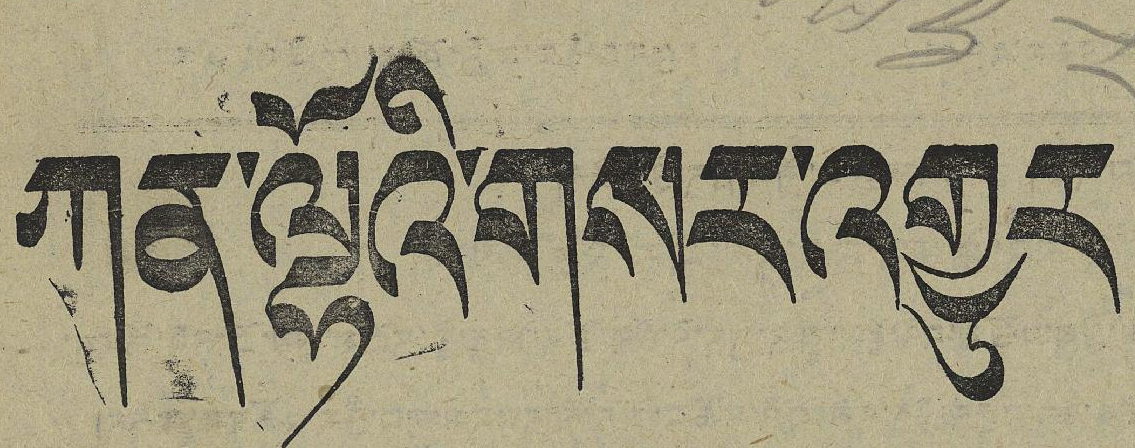ཀན་ལྷོའི་གསར་འགྱུར
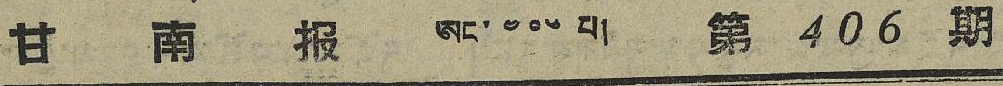甘 南 报 ཨང་ ༤༠༦ པ། 第 406 期
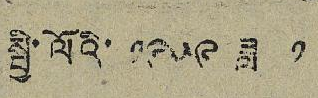སྤྱི་ལོའི་ ༡༩༥༩ ཟླ་ ༡
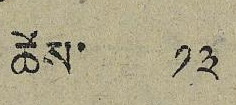ཚེས་ ༡༣
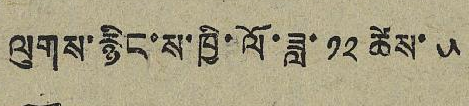ལུགས་རྙིང་ས་ཁྱི་ལོ་ཟླ་ ༡༢ ཚེས་ ༥
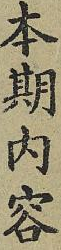本期內容
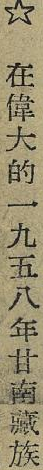☆ 在偉大的一九五八年甘南藏族
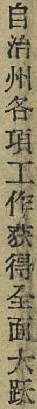自治州各項工作获得全面大跃
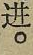进。
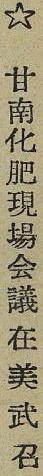☆ 甘南化肥現場会議在美 武 召
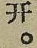开。
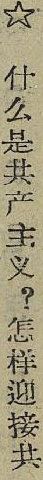☆ 什么是共产主义？怎样迎接共
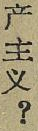产主义？
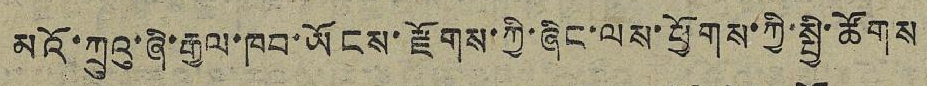མའི་ཀྲུའུ་ཞི་རྒྱལ་ཁབ་ཡོངས་རྫོགས་ཀྱི་ཞིང་ལས་ཕྱོགས་ཀྱི་སྤྱི་ཚོགས
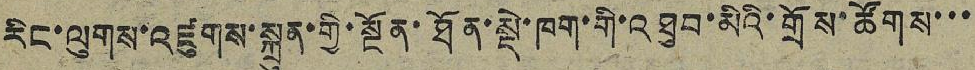རིང་ལུགས་འཛུགས་སྐྲུན་གྱི་སྔོན་ཐོན་སྡེ་ཁག་གི་འཐུབ་མིའི་གྲོས་ཚོགས་་་
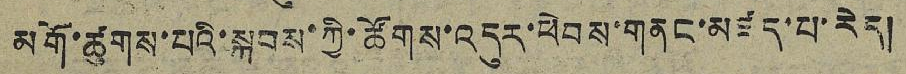མགོ་ཚུགས་པའི་སྐབས་ཀྱི་ཚོགས་འདུར་ཕེབས་གནང་མཛད་པ་རེད།
